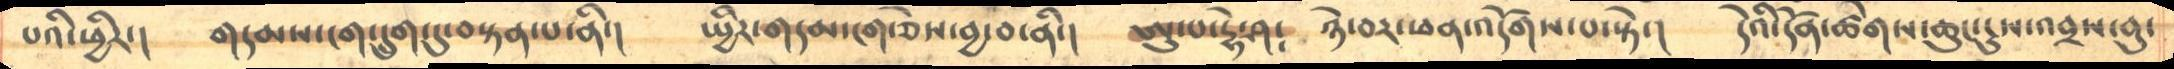པའི་ཕྱིར་།    གདམས་ངག་དྲུག་དུ་བསྟན་པ་ནི་།   སྤྱིར་གདམ་ངག་ཅེས་བྱ་བ་ནི་།   ཨུ་པ་དྷེ་ཤ༴    ཉེ་བར་ཕན་འདོགས་པ་སྟེ་།  དེའི་དོན་ཚེགས་ཆུང་ངུས་འབྲས་བུ་
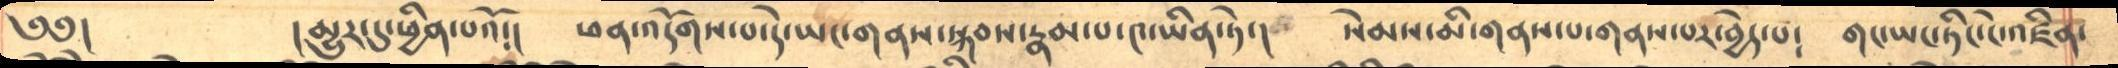༄༅།       །མྱུར་དུ་ཕྱིན་པའོ་།   ཕན་འདོགས་པ་དེ་ཡང་གནས་སྐབས་རྣམ་པ་༤་ཡིན་ཏེ་།    སེམས་མི་གནས་པ་གནས་པར་བྱེད་པ༴   གང་ཡང་ཏིང་ངེ་འཛིན་
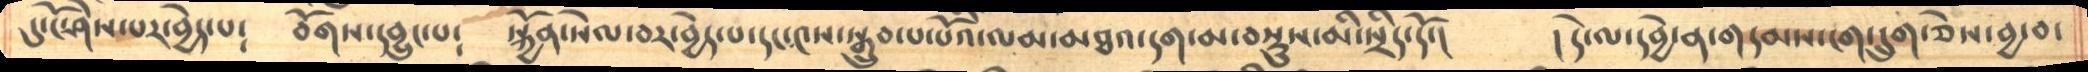དུ་ངོ་ཤེས་པར་བྱེད་པ༴   བོགས་དབྱུང་པ༴   སྐྱོན་སེལ་བར་བྱེད་པ་དང་༤ས་སྒྲུབ་པ་པོའི་ལམ་མཐའ་དག་མ་བསྡུས་མི་སྲིད་དོ་།    །དེ་ལ་དབྱེ་ན་གདམས་ངག་དདྲུག་ཅེས་བྱ་བ་
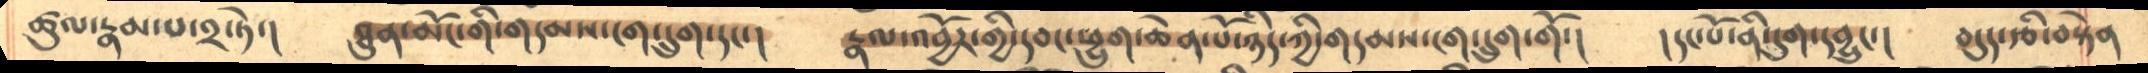ཚུལ་རྣམ་པ་༢་ཏེ་།  ཐུན་མོང་གི་གདམས་ངག་དྲུག་དང་།   རྣལ་འབྱོར་གྱི་དབང་ཕྱུག་ཆེན་པོ་ཉིད་ཀྱི་གདམས་ངག་དྲུག་གོ་།   །དང་པོ་ནི་དུག་དབྱུང་། བདུད་རྩི་བསྟེན
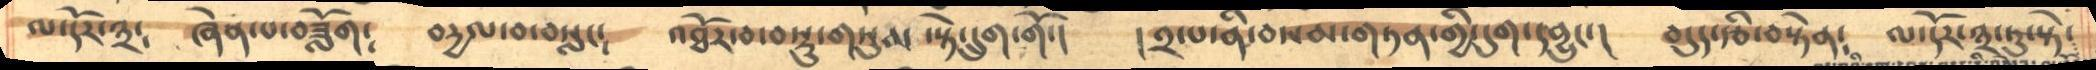ལ་དོར་༣༴   ཞེན་པ་བཟློག༴   བདྱལ་བ་བསླང༴   འཐོར་བ་བསྡུ་གསུམ་སྟེ་དདྲུག་གོ་།    །༢་པ་ནི་བསམ་གཏན་གྱི་དུག་དབྱུང་།   བདུད་རྩི་བསྟེན༴   ལ་དོར་༣་ཏུ་སྟེ་
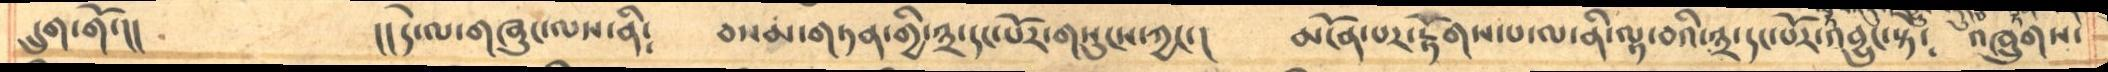དྲུག་གོ་།།      །།དེ་ལ་གཞུང་ལས་ནི༴   བསམ་གཏན་གྱི་༣་དང་པོར་གསུངས་ཀྱང་།   མངོན་པར་རྟོགས་པ་ལ་ནི་ལྟ་བའི་༣་དང་པོར་འབྱུང་སྟེ༴   འཁྲུགས་
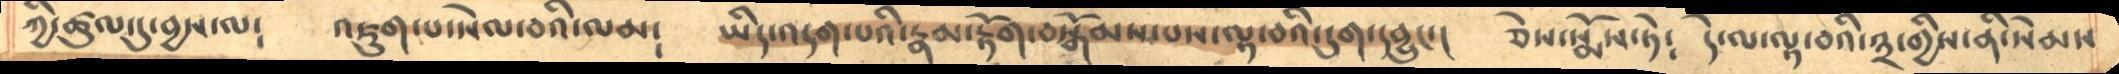ཀྱི་ཚུལ་དུ་བྱས་ལ༴   འཇུག་པ་སེལ་བའི་ལམ༴    ཡིད་འདག་པའི་རྣམ་རྟོག་བསྒོམས་པས་ལྟ་བའི་དུག་དབྱུང་།    ཅེས་སྨོས་ཏེ༴   དེ་ལ་ལྟ་བའི་༣་གྱིས་ནི་སེམས
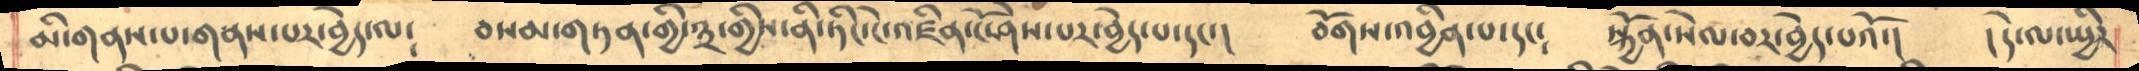མི་གནས་པ་གནས་པར་བྱེད་ལ༴   བསམ་གཏན་གྱི་༣་གྱིས་ནི་ཏིང་ངེ་འཛིན་ངོ་ཤེས་པར་བྱེད་པ་དང་།   བོགས་འབྱིན་པ་དང༴   སྐྱོན་སེལ་བར་བྱེད་པའོ་།    །དེ་ལ་སྤྱིར
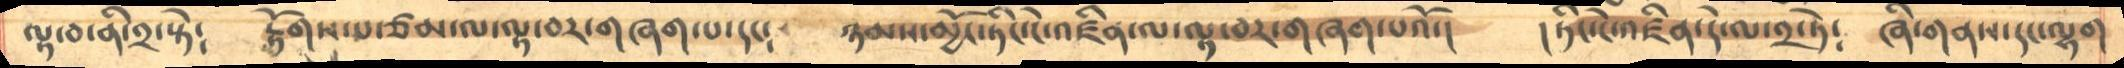ལྟ་བ་ནི་༢་སྟེ༴   རྟོགས་པ་ཙམ་ལ་ལྟ་བར་གཞག་པ་དང༴     ཉམས་མྱོང་ཏིང་ངེ་འཛིན་ལ་ལྟ་བར་གཞག་པའོ་།    །ཏིང་ངེ་འཛིན་དེ་ལ་༢་ཏེ༴  ཞི་གནས་དང་ལྷག
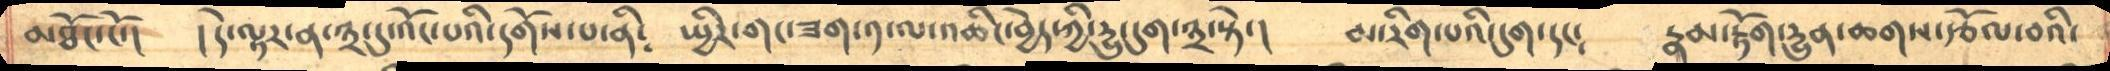མཐོང་ངོ་།    །དེ་ལྟར་ན་༣་དུ་འོང་པའི་དགོས་པ་ནི༴ སྤྱིར་གང་ཟག་༡་ལ་འཆིང་བྱེད་ཀྱི་དྱུ་དུག་༣་སྟེ་།   མ་རིག་པའི་དུག་དང༴    རྣམ་རྟོག་དྱུན་ཆགས་རྩོལ་བའི་
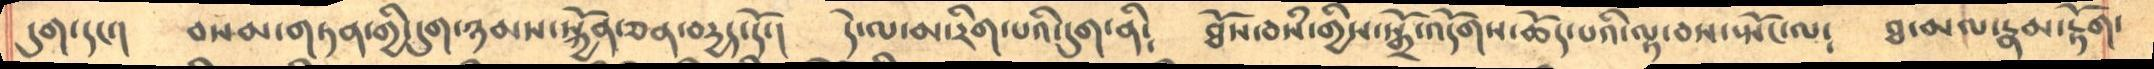དུག་དང་།     བསམ་གཏན་གྱི་དུག་ཉམས་སྐྱོན་ཅན་བདྱད་དོ་།    དེ་ལ་མ་རིག་པའི་དུག་ནི༴   ཐོས་བསཾ་གྱིས་སྒྲོ་འདོགས་ཆོད་པའི་ལྟ་བས་སྤོང་ལ༴   ཐ་མལ་རྣམ་རྟོག་
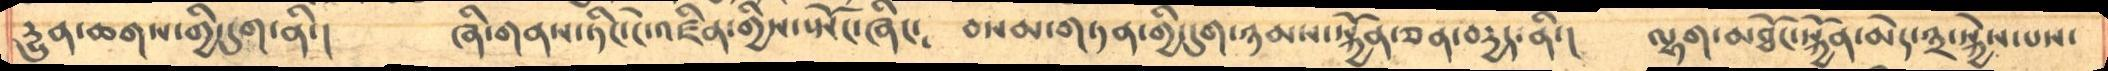དྱུན་ཆགས་གྱི་དུག་ནི་།    ཞི་གནས་ཏིང་ངེ་འཛིན་གྱིས་ཡོང་ཞིང༴  བསམ་གཏན་གྱི་དུག་ཉམས་སྐྱོན་ཅན་བདྱད་ནི་། ལྷག་མཐོང་སྐྱོན་མེད་༣་སྐྱེས་པས་
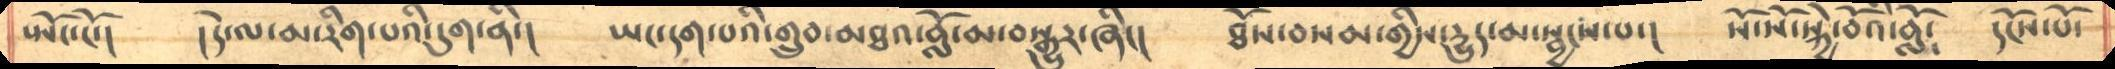ཡོང་ངོ་།   །དེ་ལ་མ་རིག་པའི་དུག་ནི་།   ཡང་དག་པའི་གྲུབ་མཐའ་བློ་མ་བསྒྱུར་ཞིང་།   ཐོས་བསམ་གྱིས་དྱུད་མ་སྦྱང་པ་།   སོ་སོ་སྐྱེ་བོའི་བློ༴   དངོས་པོ་
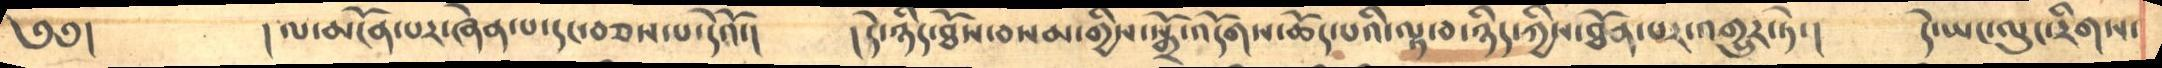༄༅།     །ལ་མངོན་པར་ཞེན་པ་དང་བཅས་པ་དེའོ་།    །དེ་ཉིད་ཐོས་བསམ་གྱིས་སྒྲོ་འདོགས་ཆོད་པའི་ལྟ་བ་ཉིད་ཀྱིས་ཐོན་པར་འགྱུར་ཏེ་།   དེ་ཡང་ལུང་རིགས་
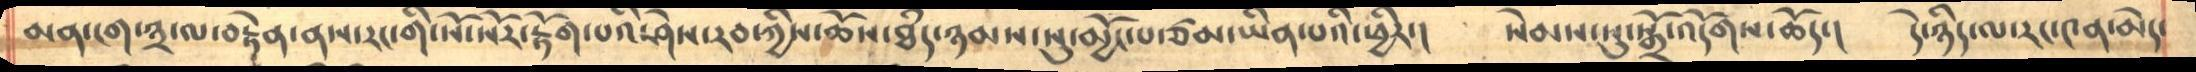མན་ངག་༣་ལ་བརྟེན་ནས་རང་གི་སོ་སོར་རྟོག་པའི་ཤེས་རབ་ཀྱིས་ཆོས་ཐྃད་ཉམས་སུ་མྱོང་པ་ཙམ་ཡིན་པའི་ཕྱིར་།   སེམས་སུ་སྒྲོ་འདོགས་ཆོད་།   དེ་ཉིད་ལ་རང་༤ན་མེད་
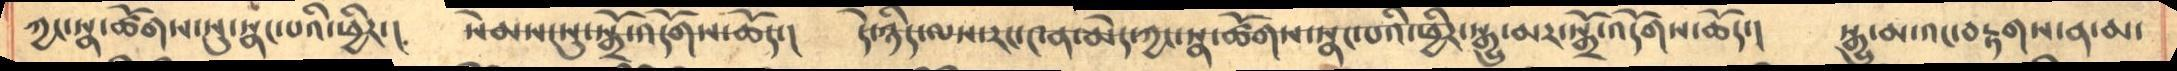ཀྱང་སྣ་ཚོགས་སུ་སྣང་པའི་ཕྱིར་།  སེམས་སུ་སྒྲོ་འདོགས་ཆོད་།   དེ་ཉིད་ལས་རང་༤ན་མེད་ཀྱང་སྣ་ཚོགས་སྣང་པའི་ཕྱིར་སྒྱུ་མར་སྒྲོ་འདོགས་ཆོད་།   སྒྱུ་མ་འང་བརྟགས་ན་མ་
